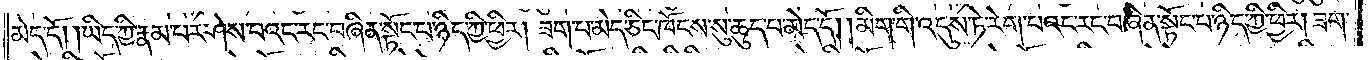མེད་དོ། །ཡིད་ཀྱི་རྣམ་པར་ཤེས་པའང་རང་བཞིན་སྟོང་པ་ཉིད་ཀྱི་ཕྱིར། ཟག་པ་མེད་ཅིང་ཁོངས་སུ་ཆུད་པ་མེད་དོ། །མིག་གི་འདུས་ཏེ་རེག་པའང་རང་བཞིན་སྟོང་པ་ཉིད་ཀྱི་ཕྱིར། ཟག་
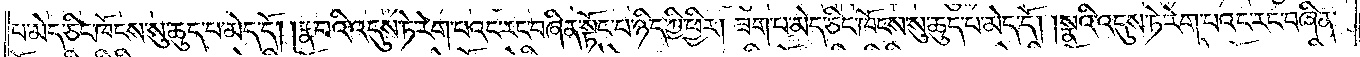པ་མེད་ཅིང་ཁོངས་སུ་ཆུད་པ་མེད་དོ། །རྣ་བའི་འདུས་ཏེ་རེག་པའང་རང་བཞིན་སྟོང་པ་ཉིད་ཀྱི་ཕྱིར། ཟག་པ་མེད་ཅིང་ཁོངས་སུ་ཆུད་པ་མེད་དོ། །སྣའི་འདུས་ཏེ་རེག་པའང་རང་བཞིན་
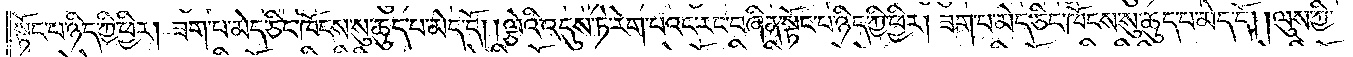སྟོང་པ་ཉིད་ཀྱི་ཕྱིར། ཟག་པ་མེད་ཅིང་ཁོངས་སུ་ཆུད་པ་མེད་དོ། །ལྕེའི་འདུས་ཏེ་རེག་པའང་རང་བཞིན་སྟོང་པ་ཉིད་ཀྱི་ཕྱིར། ཟག་པ་མེད་ཅིང་ཁོངས་སུ་ཆུད་པ་མེད་དོ། །ལུས་ཀྱི་
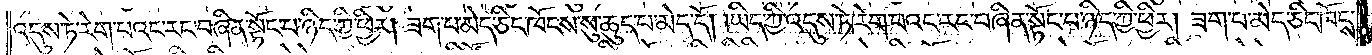འདུས་ཏེ་རེག་པའང་རང་བཞིན་སྟོང་པ་ཉིད་ཀྱི་ཕྱིར། ཟག་པ་མེད་ཅིང་ཁོངས་སུ་ཆུད་པ་མེད་དོ། །ཡིད་ཀྱི་འདུས་ཏེ་རེག་པའང་རང་བཞིན་སྟོང་པ་ཉིད་ཀྱི་ཕྱིར། ཟག་པ་མེད་ཅིང་ཁོངས་
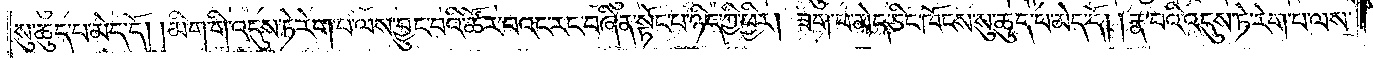སུ་ཆུད་པ་མེད་དོ། །མིག་གི་འདུས་ཏེ་རེག་པ་ལས་བྱུང་བའི་ཚོར་བའང་རང་བཞིན་སྟོང་པ་ཉིད་ཀྱི་ཕྱིར། ཟག་པ་མེད་ཅིང་ཁོངས་སུ་ཆུད་པ་མེད་དོ། །རྣ་བའི་འདུས་ཏེ་རེག་པ་ལས་
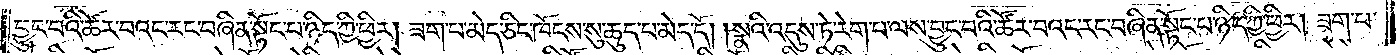བྱུང་བའི་ཚོར་བའང་རང་བཞིན་སྟོང་པ་ཉིད་ཀྱི་ཕྱིར། ཟག་པ་མེད་ཅིང་ཁོངས་སུ་ཆུད་པ་མེད་དོ། །སྣའི་འདུས་ཏེ་རེག་པ་ལས་བྱུང་བའི་ཚོར་བའང་རང་བཞིན་སྟོང་པ་ཉིད་ཀྱི་ཕྱིར། ཟག་པ་
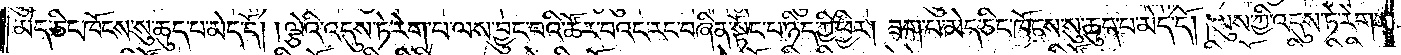མེད་ཅིང་ཁོངས་སུ་ཆུད་པ་མེད་དོ། །ལྕེའི་འདུས་ཏེ་རེག་པ་ལས་བྱུང་བའི་ཚོར་བའང་རང་བཞིན་སྟོང་པ་ཉིད་ཀྱི་ཕྱིར། ཟག་པ་མེད་ཅིང་ཁོངས་སུ་ཆུད་པ་མེད་དོ། །ལུས་ཀྱི་འདུས་ཏེ་རེག་
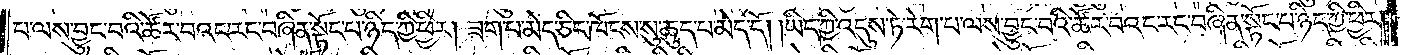པ་ལས་བྱུང་བའི་ཚོར་བའང་རང་བཞིན་སྟོང་པ་ཉིད་ཀྱི་ཕྱིར། ཟག་པ་མེད་ཅིང་ཁོངས་སུ་ཆུད་པ་མེད་དོ། །ཡིད་ཀྱི་འདུས་ཏེ་རེག་པ་ལས་བྱུང་བའི་ཚོར་བའང་རང་བཞིན་སྟོང་པ་ཉིད་ཀྱི་ཕྱིར།
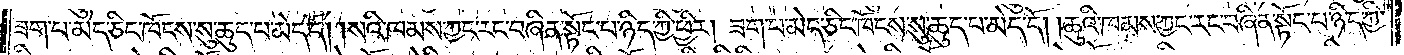ཟག་པ་མེད་ཅིང་ཁོངས་སུ་ཆུད་པ་མེད་དོ། །སའི་ཁམས་ཀྱང་རང་བཞིན་སྟོང་པ་ཉིད་ཀྱི་ཕྱིར། ཟག་པ་མེད་ཅིང་ཁོངས་སུ་ཆུད་པ་མེད་དོ། །ཆུའི་ཁམས་ཀྱང་རང་བཞིན་སྟོང་པ་ཉིད་ཀྱི་
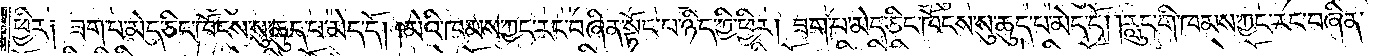ཕྱིར༑ ཟག་པ་མེད་ཅིང་ཁོངས་སུ་ཆུད་པ་མེད་དོ། །མེའི་ཁམས་ཀྱང་རང་བཞིན་སྟོང་པ་ཉིད་ཀྱི་ཕྱིར། ཟག་པ་མེད་ཅིང་ཁོངས་སུ་ཆུད་པ་མེད་དོ། །རླུང་གི་ཁམས་ཀྱང་རང་བཞིན་
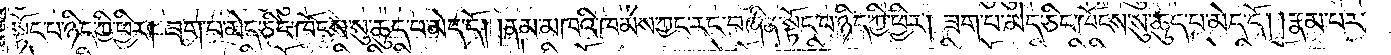སྟོང་པ་ཉིད་ཀྱི་ཕྱིར། ཟག་པ་མེད་ཅིང་ཁོངས་སུ་ཆུད་པ་མེད་དོ། །ནམ་མཁའི་ཁམས་ཀྱང་རང་བཞིན་སྟོང་པ་ཉིད་ཀྱི་ཕྱིར། ཟག་པ་མེད་ཅིང་ཁོངས་སུ་ཆུད་པ་མེད་དོ། །རྣམ་པར་
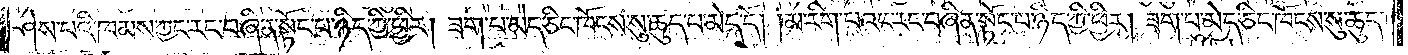ཤེས་པའི་ཁམས་ཀྱང་རང་བཞིན་སྟོང་པ་ཉིད་ཀྱི་ཕྱིར། ཟག་པ་མེད་ཅིང་ཁོངས་སུ་ཆུད་པ་མེད་དོ། །མ་རིག་པའང་རང་བཞིན་སྟོང་པ་ཉིད་ཀྱི་ཕྱིར། ཟག་པ་མེད་ཅིང་ཁོངས་སུ་ཆུད་
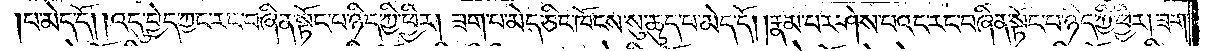པ་མེད་དོ། །འདུ་བྱེད་ཀྱང་རང་བཞིན་སྟོང་པ་ཉིད་ཀྱི་ཕྱིར། ཟག་པ་མེད་ཅིང་ཁོངས་སུ་ཆུད་པ་མེད་དོ། །རྣམ་པར་ཤེས་པའང་རང་བཞིན་སྟོང་པ་ཉིད་ཀྱི་ཕྱིར། ཟག་
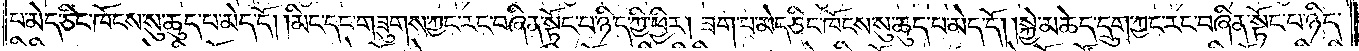པ་མེད་ཅིང་ཁོངས་སུ་ཆུད་པ་མེད་དོ། །མིང་དང་གཟུགས་ཀྱང་རང་བཞིན་སྟོང་པ་ཉིད་ཀྱི་ཕྱིར། ཟག་པ་མེད་ཅིང་ཁོངས་སུ་ཆུད་པ་མེད་དོ། །སྐྱེ་མཆེད་དྲུག་ཀྱང་རང་བཞིན་སྟོང་པ་ཉིད་
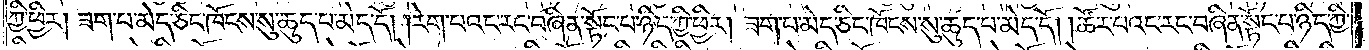ཀྱི་ཕྱིར། ཟག་པ་མེད་ཅིང་ཁོངས་སུ་ཆུད་པ་མེད་དོ། །རེག་པའང་རང་བཞིན་སྟོང་པ་ཉིད་ཀྱི་ཕྱིར། ཟག་པ་མེད་ཅིང་ཁོངས་སུ་ཆུད་པ་མེད་དོ། །ཚོར་བའང་རང་བཞིན་སྟོང་པ་ཉིད་ཀྱི་
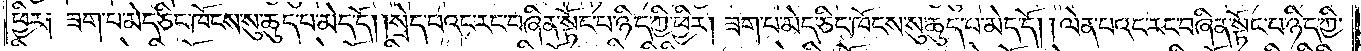ཕྱིར༑ ཟག་པ་མེད་ཅིང་ཁོངས་སུ་ཆུད་པ་མེད་དོ། །སྲེད་པའང་རང་བཞིན་སྟོང་པ་ཉིད་ཀྱི་ཕྱིར། ཟག་པ་མེད་ཅིང་ཁོངས་སུ་ཆུད་པ་མེད་དོ། །ལེན་པའང་རང་བཞིན་སྟོང་པ་ཉིད་ཀྱི་
